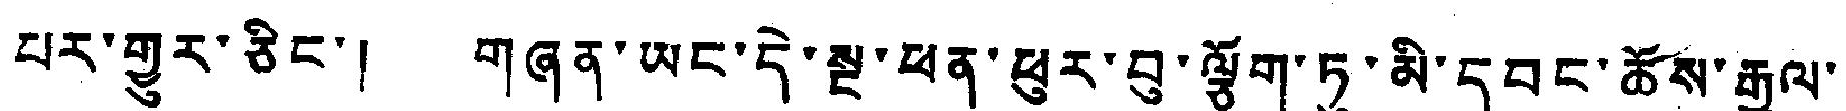པར་གྱུར་ཅིང་། གཞན་ཡང་དེ་སྔ་ཕན་ཕུར་བུ་ལྕོག་ཏུ་མི་དབང་ཆོས་རྒྱལ་
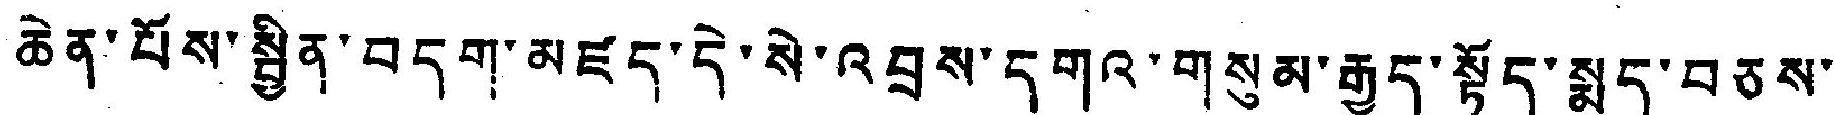ཆེན་པོས་སྦྱིན་བདག་མཛད་དེ་སེ་འབྲས་དགའ་གསུམ་རྒྱུད་སྟོད་སྨད་བཅས་
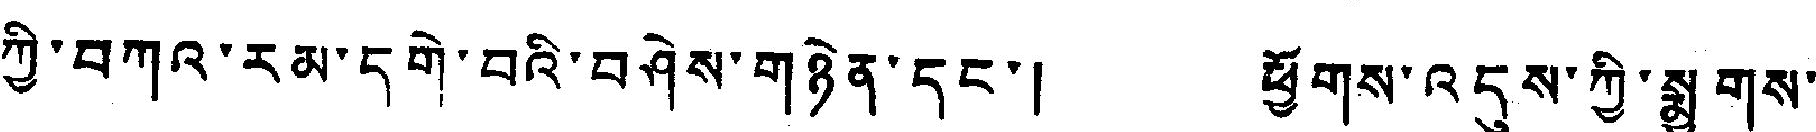ཀྱི་བཀའ་རམ་དགེ་བའི་བཤེས་གཉེན་དང་། ཕྱོགས་འདུས་ཀྱི་སྨྱུགས་
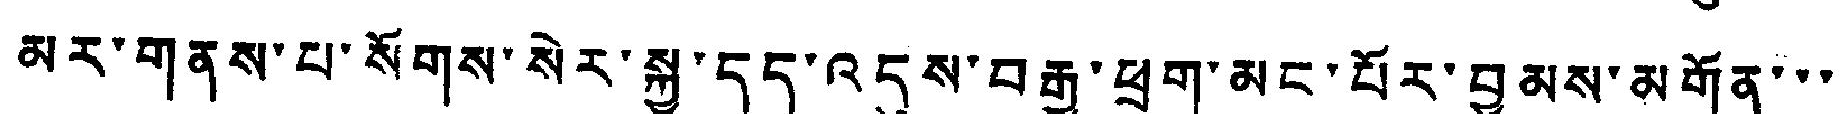མར་གནས་པ་སོགས་སེར་སྐྱ་དད་འདུས་བརྒྱ་ཕྲག་མང་པོར་བྱམས་མགོན་་་
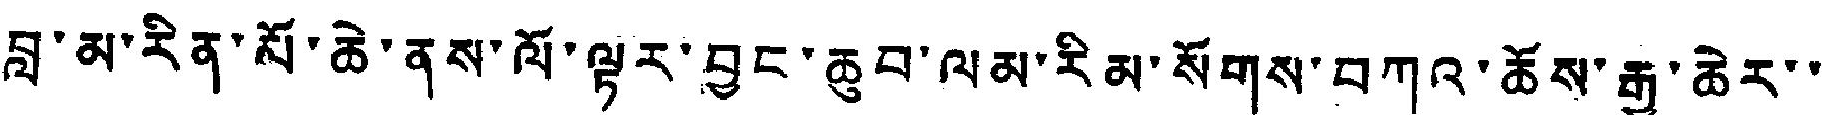བླ་མ་རིན་པོ་ཆེ་ནས་ལོ་ལྟར་བྱང་ཆུབ་ལམ་རིམ་སོགས་བཀའ་ཆོས་རྒྱ་ཆེར་
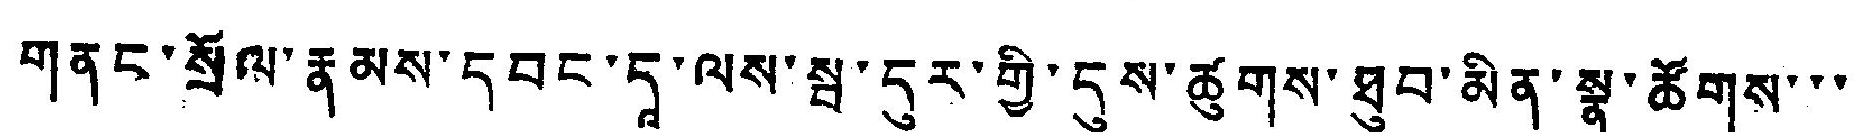གནང་སྲོལ་རྣམས་དབང་དའ་ལས་སྦ་དུར་གྱི་དུས་ཚུགས་ཐུབ་མིན་སྣ་ཚོགས་་་
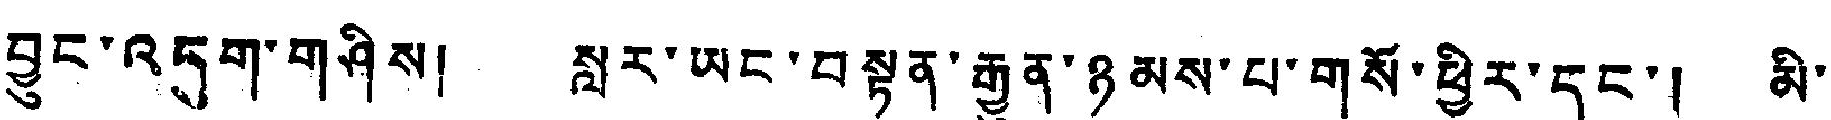བྱུང་འདུག་གཤིས། སླར་ཡང་བསྟན་རྒྱུན་ཉམས་པ་གསོ་ཕྱིར་དང་། མི་
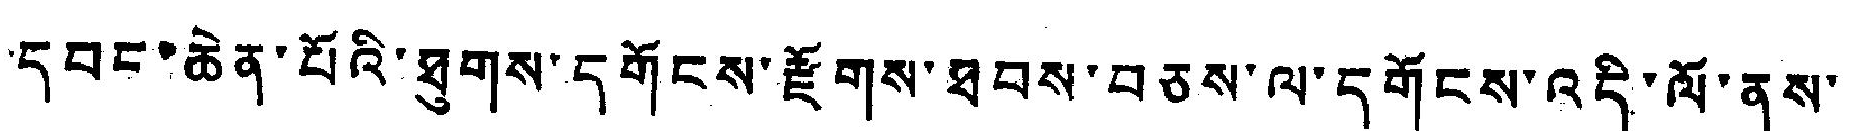དབང་ཆེན་པོའི་ཐུགས་དགོངས་རྫོགས་ཐབས་བཅས་ལ་དགོངས་འདི་ལོ་ནས་
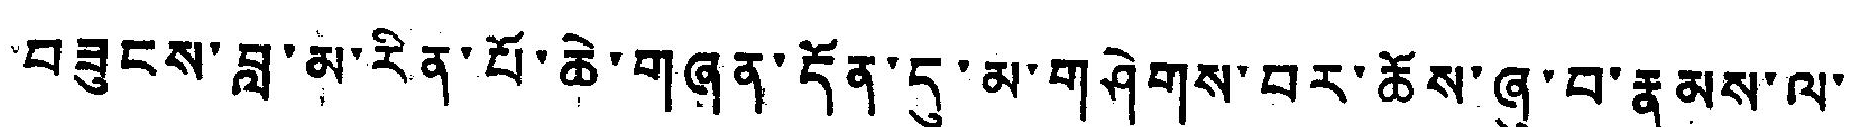བཟུངས་བླ་མ་རིན་པོ་ཆེ་གཞན་དོན་དུ་མ་གཤེགས་བར་ཆོས་ཞུ་བ་རྣམས་ལ་
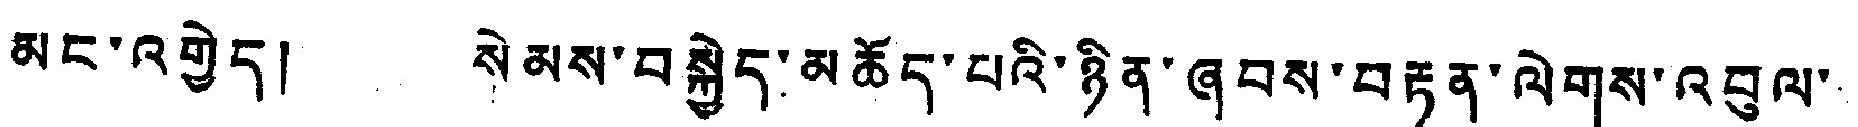མང་འགྱེད། སེམས་བསྐྱེད་མཆོད་པའི་ཉིན་ཞབས་བརྟན་ལེགས་འབུལ་
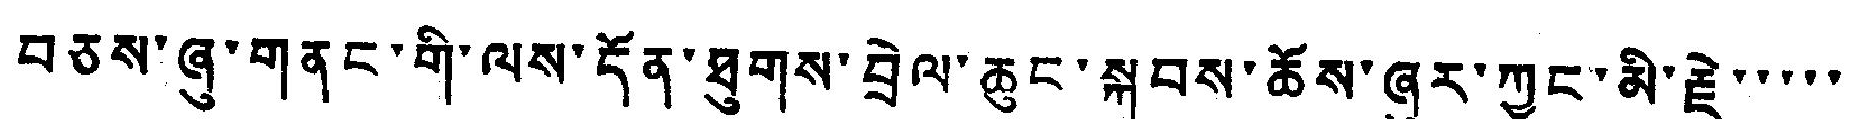བཅས་ཞུ་གནང་གི་ལས་དོན་ཐུགས་བྲེལ་ཆུང་སྐབས་ཆོས་ཞུར་ཀྱང་མི་རྗེ་་་་་
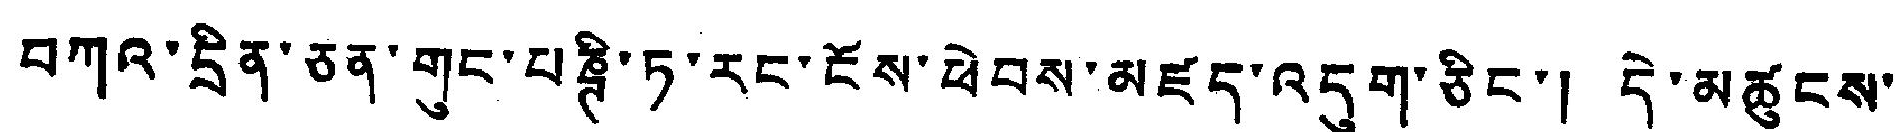བཀའ་དྲིན་ཅན་གུང་པཎྚི་ཏ་རང་ངོས་ཕེབས་མཛད་འདུག་ཅིང་། དེ་མཚུངས་
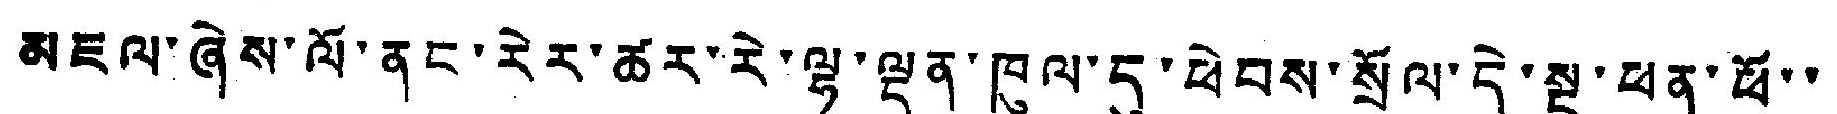མཇལ་ཞེས་ལོ་ནང་རེར་ཚར་རེ་ལྷ་ལྡན་ཁུལ་དུ་ཕེབས་སྲོལ་དེ་སྔ་ཕན་ཕོ་་
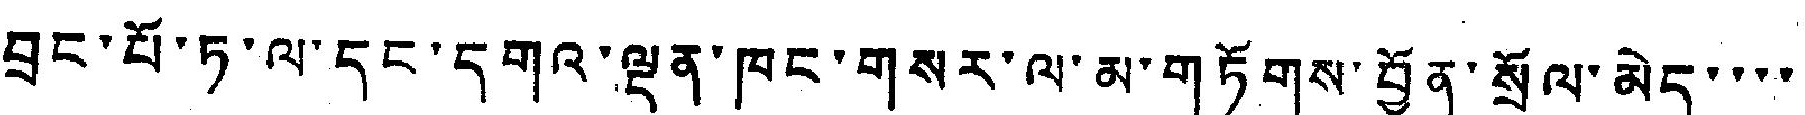བྲང་པོ་ཏ་ལ་དང་དགའ་ལྡན་ཁང་གསར་ལ་མ་གཏོགས་བྱོན་སྲོལ་མེད་་་་
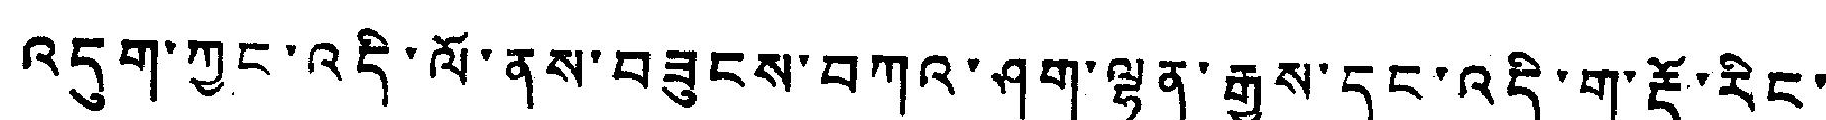འདུག་ཀྱང་འདི་ལོ་ནས་བཟུངས་བཀའ་ཤག་ལྷན་རྒྱས་དང་འདི་ག་རྡོ་རིང་
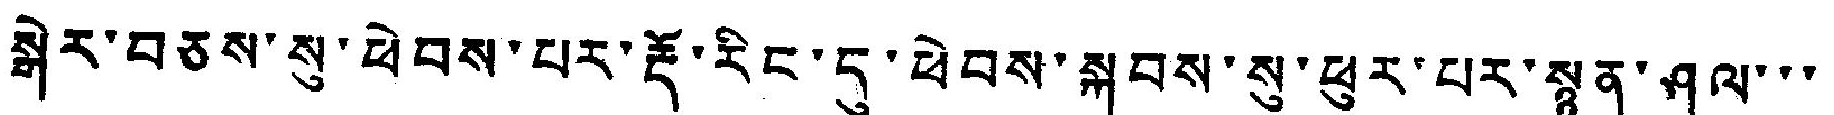སྒེར་བཅས་སུ་ཕེབས་པར་རྡོ་རིང་དུ་ཕེབས་སྐབས་སུ་ཕུར་པར་སྙན་ཤལ་་་
